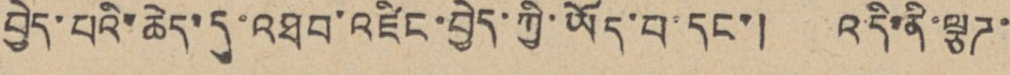བྱེད་པའི་ཆེད་དུ་འཐབ་འཛིང་བྱེད་ཀྱི་ཡོད་པ་དང་། འདི་ནི་ལྕཊ་
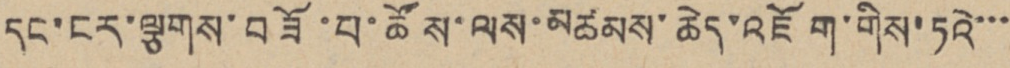དང་ངར་ལྕགས་བཟོ་པ་ཚོས་ལས་མཚམས་ཆེད་འཇོག་གིས་ཏའེ་་་
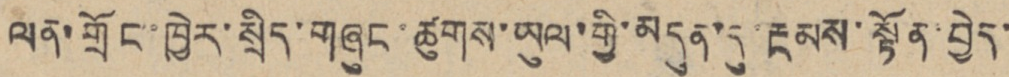ལན་གྲོང་ཁྱེར་སྲིད་གཞུང་ཚུགས་ཡུལ་གྱི་མདུན་དུ་རྔམས་སྟོན་བྱེད་
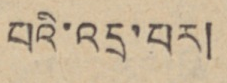པའི་འདྲ་པར།
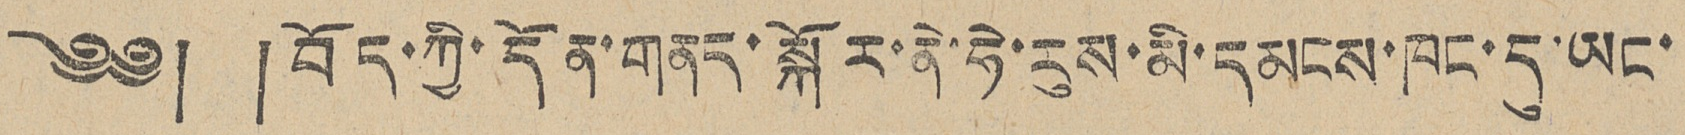༄༅། །བོད་ཀྱི་དོན་གནད་སྐོར་ནེ་ཧེ་རུས་མི་དམངས་ཁང་དུ་ཡང་
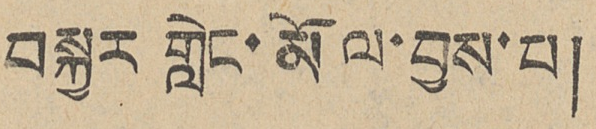བསྐྱར གླེང་མོལ་བྱས་པ།
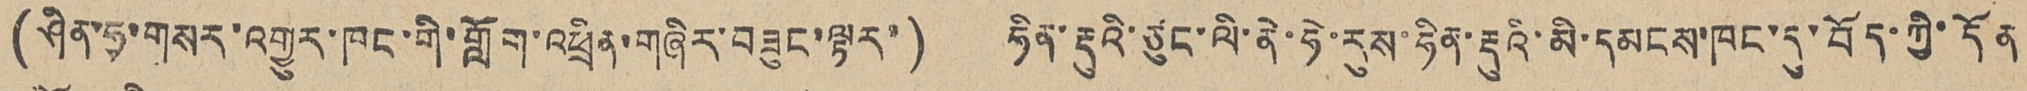(ཤིན་ཧྭ་གསར་འགྱུར་ཁང་གི་གློག་འཕྲིན་གཞིར་བཟུང་ལྟར་) ཧིན་རྡུའི་ཙུང་ལི་ནེ་ཧེ་རུས་ཧིན་རྡུའི་མི་དམངས་ཁང་དུ་བོད་ཀྱི་དོན
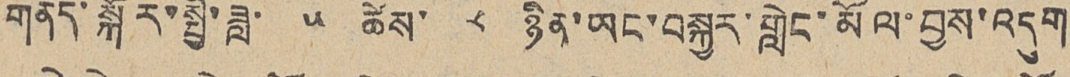གནད་སྐོར་སྤྱི་ཟླ་ ༥ ཚེས་ ༨ ཉིན་ཡང་བསྐྱར་གླེང་མོལ་བྱས་འདུག
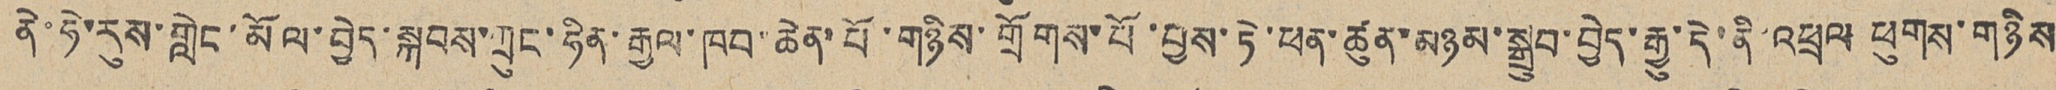ནེ་ཧེ་རུས་གླེང་མོལ་བྱེད་སྐབས་ཀྲུང་ཧིན་རྒྱལ་ཁབ་ཆེན་པོ་གཉིས་གྲོགས་པོ་བྱས་ཏེ་ཕན་ཚུན་མཉམ་སྒྲུབ་བྱེད་རྒྱུ་དེ་ནི་འཕྲལ ཕུགས་གཉིས
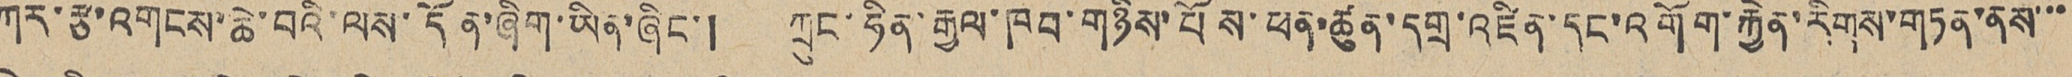ཀར་རྩ་འགངས་ཆེ་བའི་ལས་དོན་ཞིག་ཡིན་ཞིང་ །ཀྲུང་ཧིན་རྒྱལ་ཁབ་གཉིས་པོས་ཕན་ཚུན་དགྲ་འཛིན་དང་འགོག་རྐྱེན་རིགས་གཏན་ནས་་་
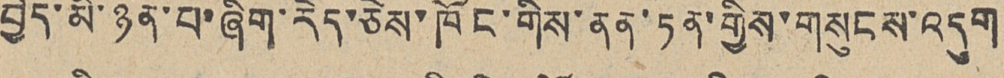བྱེད་མི་ཉན་པ་ཞིག་རེད་ཅེས་ཁོང་གིས་ནན་ཏན་གྱིས་གསུངས་འདུག
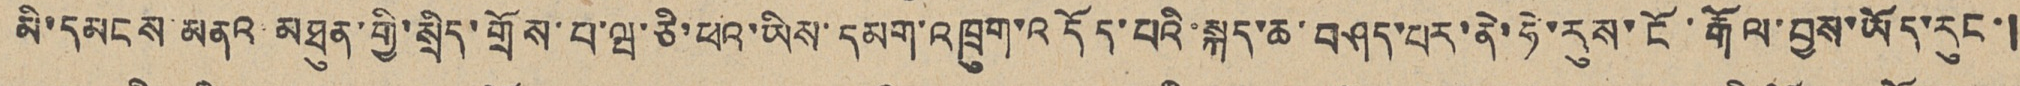མི་དམངས མནའ མཐུན་གྱི་སྲིད་གྲོས་པ་ཝ་ཅི་ཕའ་ཡིས་དམག་འཁྲུག་འདོད་པའི་སྐད་ཆ་བཤད་པར་ནེ་ཧེ་རུས་ངོ་རྒོལ་བྱས་ཡོད་རུང་།
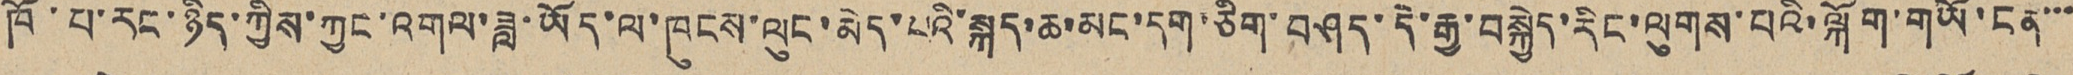ཁོ་པ་རང་ཉིད་ཀྱིས་ཀྱང་འགལ་ཟླ་ཡོད་ལ་ཁུངས་ལུང་མེད་པའི་སྐད་ཆ་མང་དག་ཅིག་བཤད་དེ་རྒྱ་བསྐྱེད་རིང་ལུགས་པའི་ལྐོག་གཡོ་ངན་་་
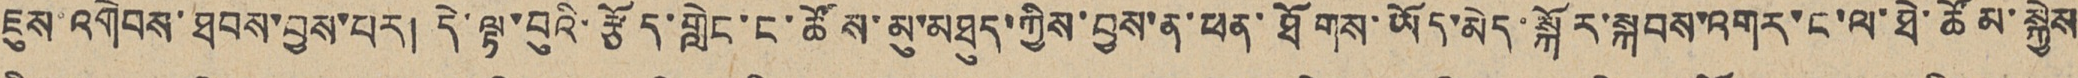ཇུས་འགེབས་ཐབས་བྱས་པར། དེ་ལྟ་བུའི་རྩོད་གླེང་ང་ཚོས་མུ་མཐུད་ཀྱིས་བྱས་ན་ཕན་ཐོགས་ཡོད་མེད་སྐོར་སྐབས་འགར་ང་ལ་ཐེ་ཚོམ་སྐྱེས
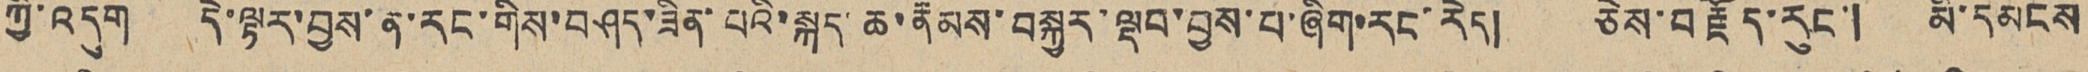ཀྱི་འདུག དེ་ལྟར་བྱས་ན་རང་གིས་བཤད་ཟིན་པའི་སྐད་ཆ་རྣམས་བསྐྱར་ལྡབ་བྱས་པ་ཞིག་རང་རེད། ཅེས་བརྗོད་རུང་། མི་དམངས
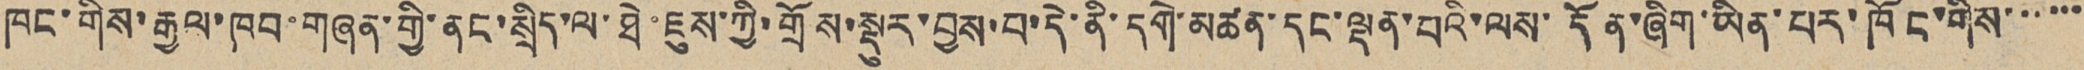ཁང་གིས་རྒྱལ་ཁབ་གཞན་གྱི་ནང་སྲིད་ལ་ཐེ་ཇུས་ཀྱི་གྲོས་སྡུར་བྱས་པ་དེ་ནི་དགེ་མཚན་དང་ལྡན་པའི་ལས་དོན་ཞིག་ཡིན་པར་ཁོང་གིས་་་་་་
